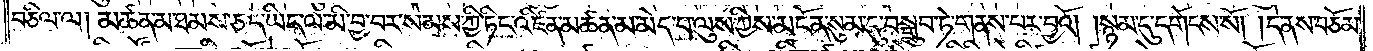བཅིལ་ལ། མཚན་མ་ཐམས་ཅད་ཡིད་ལ་མི་བྱ་བར་སེམས་ཀྱི་ཏིང་འཛིན་མཚན་མ་མེད་པ་ལུས་ཀྱིས་མངོན་སུམ་དུ་བསྒྲུབ་ཏེ་གནས་པར་བྱའོ། །སྙམ་དུ་དགོངས་སོ། །དེ་ནས་བཅོམ་
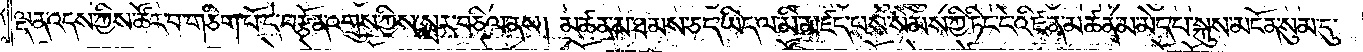ལྡན་འདས་ཀྱིས་ཚོར་བ་གཅིག་པོ་དེ་བརྩོན་འགྲུས་ཀྱིས་སླར་བཅིལ་ནས། མཚན་མ་ཐམས་ཅད་ཡིད་ལ་མི་མཛད་པས་སེམས་ཀྱི་ཏིང་ངེ་འཛིན་མཚན་མ་མེད་པ་སྐུས་མངོན་སུམ་དུ་
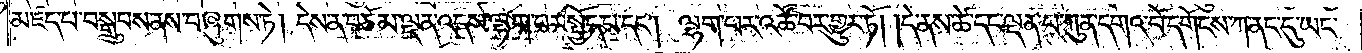མཛད་པ་བསྒྲུབས་ནས་བཞུགས་ཏེ། དེས་ན་བཅོམ་ལྡན་འདས་ལྷག་པར་སྤྱོད་པ་དང༌། ལྷག་པར་འཚོ་བར་གྱུར་ཏོ། །དེ་ནས་ཚེ་དང་ལྡན་པ་ཀུན་དགའ་བོ་དགོངས་ཀ་ནང་དུ་ཡང་
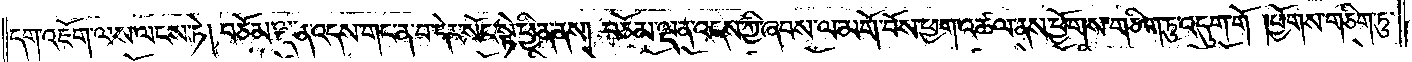དག་འཇོག་ལས་ལངས་ཏེ། བཅོམ་ལྡན་འདས་གང་ན་བ་དེར་སོང་སྟེ་ཕྱིན་ནས། བཅོམ་ལྡན་འདས་ཀྱི་ཞབས་ལ་མགོ་བོས་ཕྱག་འཚལ་ནས་ཕྱོགས་གཅིག་ཏུ་འདུག་གོ །ཕྱོགས་གཅིག་ཏུ་
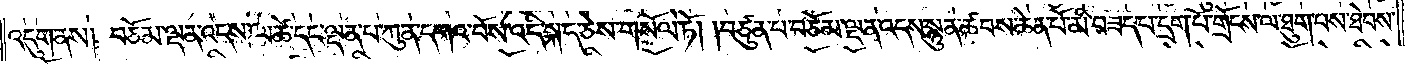འདུག་ནས། བཅོམ་ལྡན་འདས་ལ་ཚེ་དང་ལྡན་པ་ཀུན་དགའ་བོས་འདི་སྐད་ཅེས་གསོལ་ཏོ། །བཙུན་པ་བཅོམ་ལྡན་འདས་སྙུན་ཚབས་ཆེན་པོ་མི་བཟད་པ་དྲག་པོ་གྲོངས་ལ་ཐུག་པས་ཐེབས་
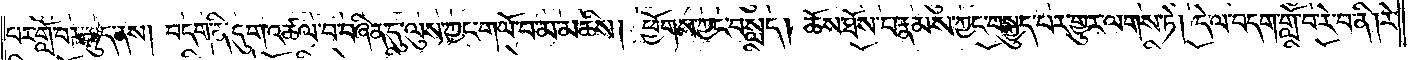པར་གློ་བར་ཆུད་ནས། བདག་ནི་དུག་འཚལ་བ་བཞིན་དུ་ལུས་ཀྱང་གཡོ་བ་མ་མཆིས། ཕྱོགས་ཀྱང་བསླད། ཆོས་ཐོས་པ་རྣམས་ཀྱང་བསྐྱུད་པར་གྱུར་ལགས་ཏེ། དེ་ལ་བདག་གློ་བ་རེ་བ་ནི། རེ་
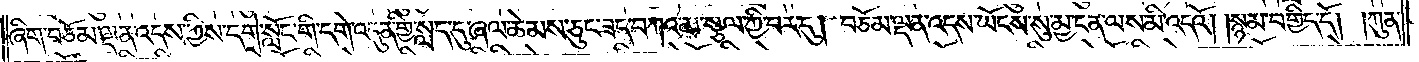ཞིག་བཅོམ་ལྡན་འདས་ཀྱིས་དགེ་སློང་གི་དགེ་འདུན་གྱི་སླད་དུ་ཞལ་ཆེམས་ཅུང་ཟད་བཀའ་མ་སྩལ་གྱི་བར་དུ། བཅོམ་ལྡན་འདས་ཡོངས་སུ་མྱ་ངན་ལས་མི་འདའོ། །སྙམ་བགྱིད་དོ། །ཀུན་
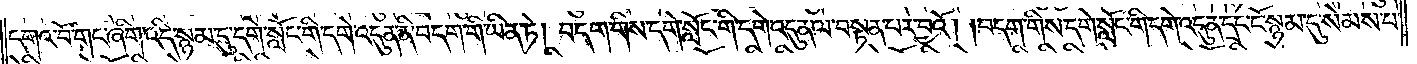དགའ་བོ་གང་ཞིག་འདི་སྙམ་དུ་དགེ་སློང་གི་དགེ་འདུན་ནི་བདག་གི་ཡིན་ཏེ། བདག་གིས་དགེ་སློང་གི་དགེ་འདུན་ལ་བསྟན་པར་བྱའོ། །བདག་གིས་དགེ་སློང་གི་དགེ་འདུན་དྲང་ངོ་སྙམ་དུ་སེམས་པ་
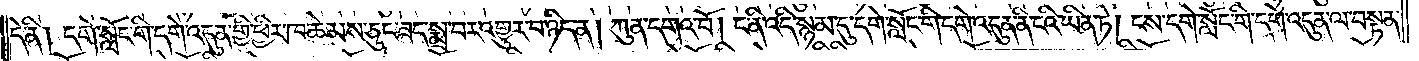དེ་ནི། དགེ་སློང་གི་དགེ་འདུན་གྱི་ཕྱིར་ཁ་ཆེམས་ཅུང་ཟད་སྨྲ་བར་འགྱུར་བ་ཉིད་ན། ཀུན་དགའ་བོ། ང་ནི་འདི་སྙམ་དུ་དགེ་སློང་གི་དགེ་འདུན་ནི་ངའི་ཡིན་ཏེ། ངས་དགེ་སློང་གི་དགེ་འདུན་ལ་བསྟན་
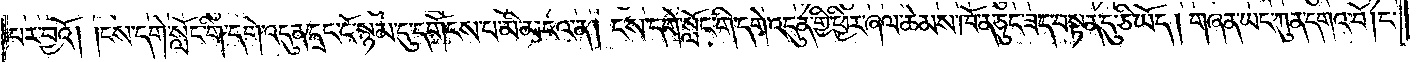པར་བྱའོ། །ངས་དགེ་སློང་གི་དགེ་འདུན་དྲང་ངོ་སྙམ་དུ་དགོངས་པ་མི་མངའ་ན། ངས་དགེ་སློང་གི་དགེ་འདུན་གྱི་ཕྱིར་ཞལ་ཆེམས་ཁོ་ན་ཅུང་ཟད་བསྟན་དུ་ཅི་ཡོད། གཞན་ཡང་ཀུན་དགའ་བོ། ང་
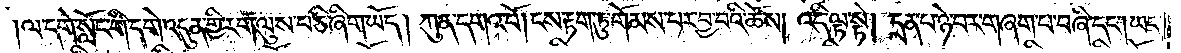ལ་དགེ་སློང་གི་དགེ་འདུན་གྱི་རག་ལུས་པ་ཅི་ཞིག་ཡོད། ཀུན་དགའ་བོ། ངས་རྟག་ཏུ་གོམས་པར་བྱ་བའི་ཆོས། འདི་ལྟ་སྟེ། དྲན་པ་ཉེ་བར་གཞག་པ་བཞི་དང༌། ཡང་
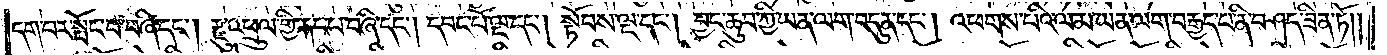དག་པར་སྤོང་བ་བཞི་དང༌། རྫུ་འཕྲུལ་གྱི་རྐང་པ་བཞི་དང༌། དབང་པོ་ལྔ་དང༌། སྟོབས་ལྔ་དང༌། བྱང་ཆུབ་ཀྱི་ཡན་ལག་བདུན་དང༌། འཕགས་པའི་ལམ་ཡན་ལག་བརྒྱད་པ་ནི་བཤད་ཟིན་ཏོ༎
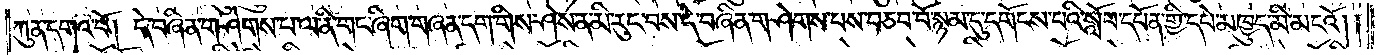ཀུན་དགའ་བོ། དེ་བཞིན་གཤེགས་པ་ལ་ནི་གང་ཞིག་གཞན་དག་གིས་ཤེས་ན་མི་རུང་བས་དེ་བཞིན་གཤེགས་པས་བཅབ་བོ་སྙམ་དུ་དགོངས་པའི་སློབ་དཔོན་གྱི་དཔེ་མཁྱུད་མི་མངའོ། །
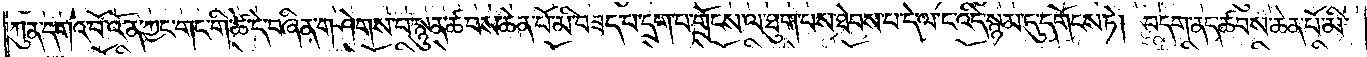ཀུན་དགའ་བོ་འོན་ཀྱང་གང་གི་ཚེ་དེ་བཞིན་གཤེགས་པ་སྙུན་ཚབས་ཆེན་པོ་མི་བཟད་པ་དྲག་པ་གྲོངས་ལ་ཐུག་པས་ཐེབས་པ་དེ་ལ་ང་འདི་སྙམ་དུ་དགོངས་ཏེ། བདག་ནད་ཚབས་ཆེན་པོ་མི་
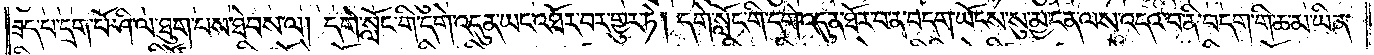ཟད་པ་དྲག་པོ་ཤི་ལ་ཐུག་པས་ཐེབས་ལ། དགེ་སློང་གི་དགེ་འདུན་ཡང་འཐོར་བར་གྱུར་ཏེ། དགེ་སློང་གི་དགེ་འདུན་ཐོར་བ་ན་བདག་ཡོངས་སུ་མྱ་ངན་ལས་འདའ་བ་ནི་བདག་གི་ཆ་མ་ཡིན་
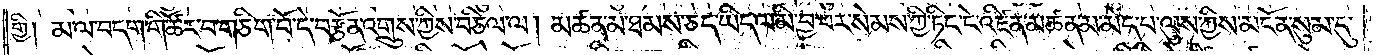གྱི། མ་ལ་བདག་གི་ཚོར་བ་གཅིག་པོ་དེ་བརྩོན་འགྲུས་ཀྱིས་བཅིལ་ལ། མཚན་མ་ཐམས་ཅད་ཡིད་ལ་མི་བྱ་བར་སེམས་ཀྱི་ཏིང་ངེ་འཛིན་མཚན་མ་མེད་པ་ལུས་ཀྱིས་མངོན་སུམ་དུ་
